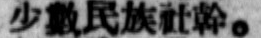少數民族社幹。
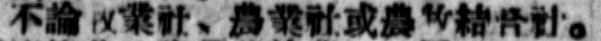不論牧業社、農業社或農牧結合社。
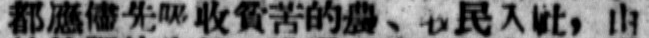都應儘先吸收貧苦的農、牧民入社，由
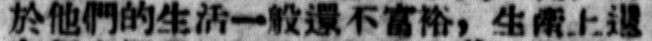於他們的生活一般還不富裕，生產上還
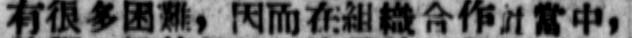有很多困難，因而在組織合作社當中，
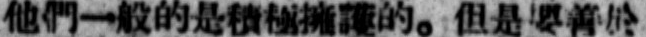他們一般的是積極擁護的。但是要善於
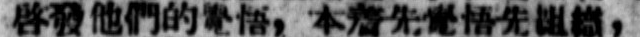啓發他們的覺悟，本着先覺悟先組織，
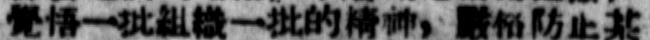覺悟一批組織一批的精神，嚴格防止某
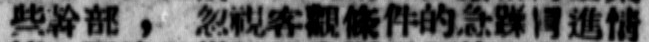些幹部 ， 忽視客觀條件的急躁冒進情
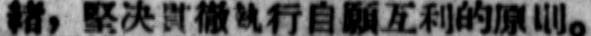緒，堅決貫徹執行自願互利的原則。
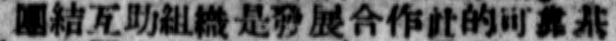團結互助組織是發展合作社的可靠基
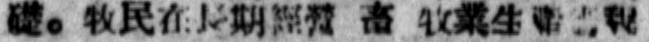礎。牧民在長期經歷 畜 牧業生產勞動
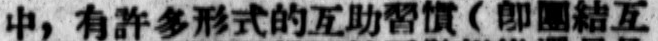中，有許多形式的互助習慣（卽團結互
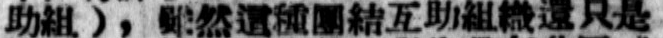助組），雖然這種團結互助組織還只是
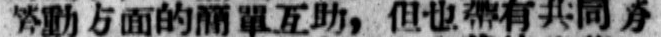勞動方面的簡單互助，但也帶有共同勞
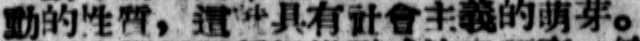動的性質，這些具有社會主義的萌芽。
